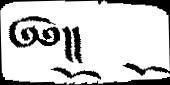༄༅།།
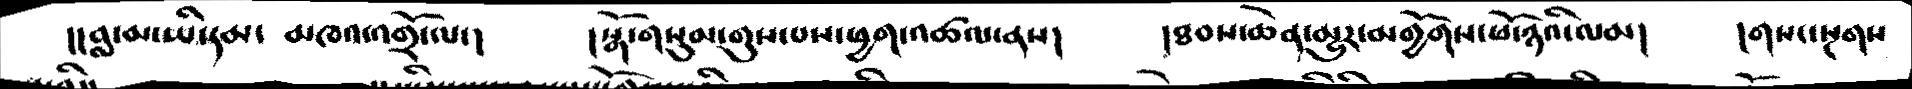།།བླ་མ་ཡི་དམ་ མཁའ་འགྲོ་ལ་།   །སྒོ་གསུམ་གུས་པས་ཕྱག་འཚལ་ནས།   །ཐབས་ཆེན་མྱུར་མགྱོགས་ཕོ་ཉའི་ལམ།   །གསང་སྔགས
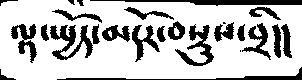ལྟ་སྤྱོད་མདོར་བསྡུས་བྲི།།
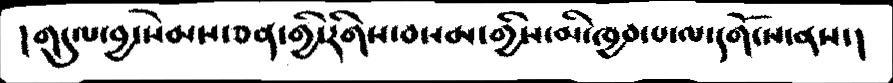།གདུལ་བྱ་སེམས་ཅན་གྱི་རིགས་བསམ་གྱིས་མི་ཁྱབ་པ་ལ་དགོངས་ནས་།
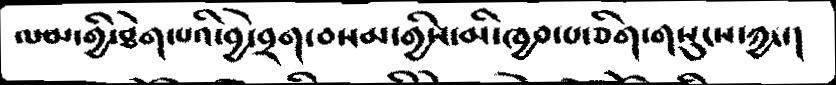ལམ་གྱི་ཐེག་པའི་བྱེ་བྲག་བསམ་གྱིས་མི་ཁྱབ་པ་ཅིག་གསུངས་ཀྱང་།
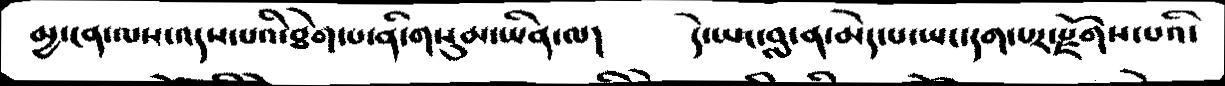མྱ་ངན་ལས་འདས་པའི་ཐེག་པ་ནི་གསུམ་ཡིན་ལ།   དེ་ཡང་བླ་ན་མེད་པ་ཡང་དག་པར་རྫོགས་པའི་
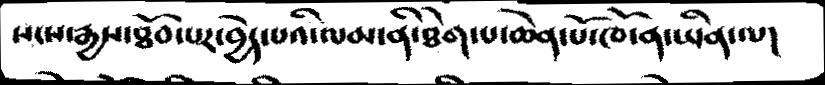སངས་རྒྱས་ཐོབ་པར་བྱེད་པའི་ལམ་ནི་ཐེག་པ་ཆེན་པོ་ཁོ་ན་ཡིན་ལ།
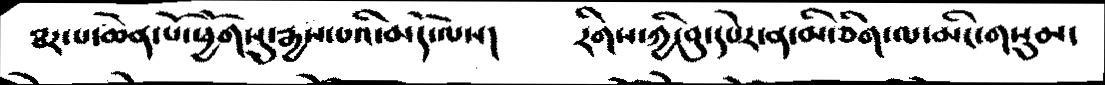ཐར་པ་ཆེན་པོ་ཕྱོགསུ་རྒྱས་པའི་མདོ་ལས།   རིགས་ཀྱི་བུ་དཔེར་ན་མི་ཅིག་ལ་མིང་གསུམ་
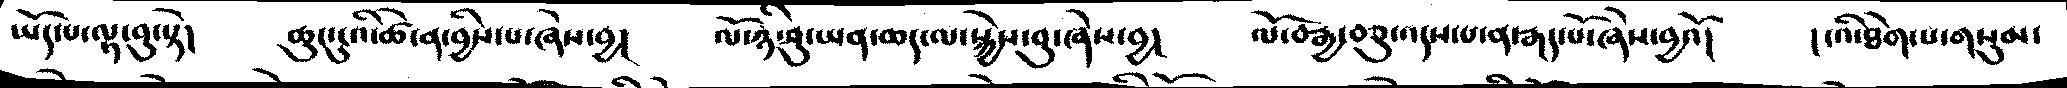ཡོད་པ་ལྟ་བུ་སྟེ།   ཆུང་ངུའི་ཚེ་ན་བྱིས་པ་ཞེས་བྱ།   ལོ་ཉི་ཤུ་ཡན་ཆད་ལ་སྐྱེས་བུ་ཞེས་བྱ།   ལོ་བརྒྱད་བཅུ་འདས་པ་ན་རྒད་པོ་ཞེས་བྱའོ།   །ངའི་ཐེག་པ་གསུམ་
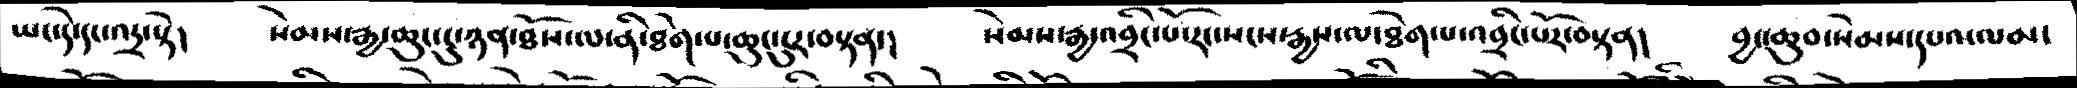ཡང་དེ་དང་འདྲ་སྟེ།   སེམས་རྒྱ་ཆུང་ངུ་ཉན་ཐོས་ལ་ནི་ཐེག་པ་ཆུང་ངུར་བསྟན་།   སེམས་རྒྱ་འབྲིང་པོ་རང་སངས་རྒྱས་ལ་ཐེག་པ་འབྲིང་པོར་བསྟན།   བྱང་ཆུབ་སེམས་དཔའ་ལམ་
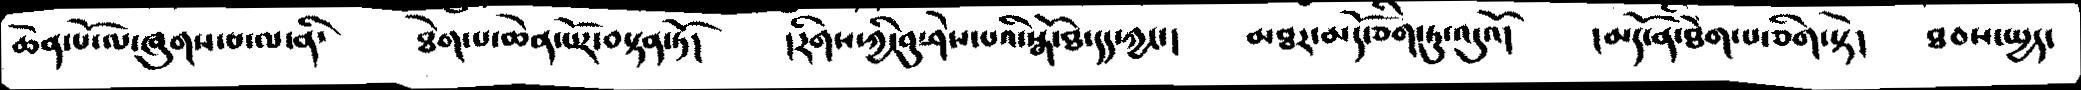ཆེན་པོ་ལ་ཞུགས་པ་ལ་ནི་   ཐེག་པ་ཆེན་པོར་བསྟན་ཏོ།   །རིགས་ཀྱི་བུ་ཤེས་པའི་སྒོ་ཐ་དད་ཀྱང་།   མཐར་མདོ་ཅིག་ཏུ་འདུའོ།   །མདོ་ནི་ཐེག་པ་ཅིག་སྟེ།   ཐབས་སྤྱད་
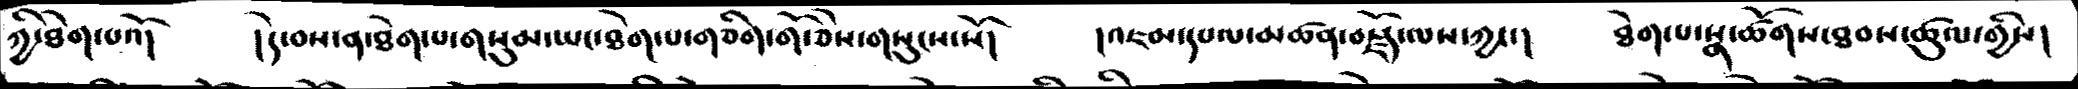ཀྱི་ཐེག་པའོ།   །དེ་བས་ན་ཐེག་པ་གསུམ་ཡང་ཐེག་པ་གཅིག་གོ་ཅེས་གསུངས་སོ།   །འཇམ་དཔལ་མཚན་བརྗོད་ལས་ཀྱང་།   ཐེག་པ་སྣ་ཚོགས་ཐབས་ཚུལ་གྱིས།
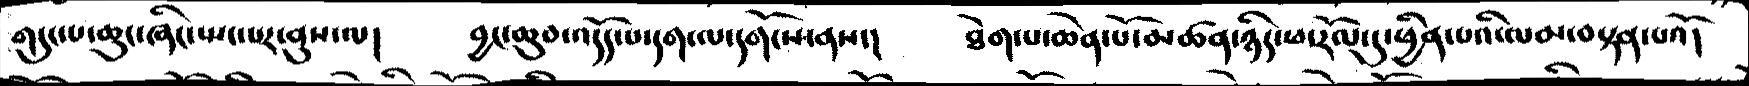གདུང་པ་ཆུང་ཞིང་སྤང་པར་ནུས་ལ།   བྱང་ཆུབ་འདོད་པ་དག་ལ་དགོངས་ནས་།   ཐེག་པ་ཆེན་པོ་མཚན་ཉིད་ཕ་རོལ་དུ་ཕྱིན་པའི་ལམ་བསྟན་པའོ།
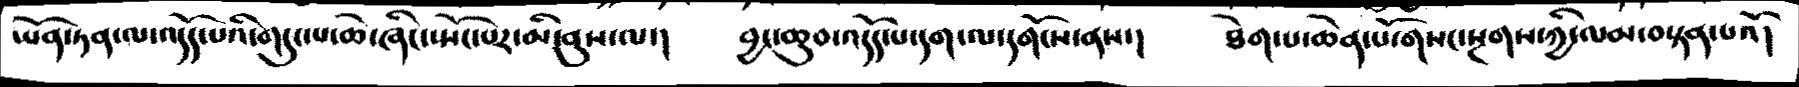ཡོན་ཏན་ལ་འདོད་པའི་གདུང་པ་ཆེ་ཞིང་སྤོང་པར་མི་ནུས་ལ།   བྱང་ཆུབ་འདོད་པ་དག་ལ་དགོངས་ནས་།   ཐེག་པ་ཆེན་པོ་གསང་སྔགས་ཀྱི་ལམ་བསྟན་པའོ།
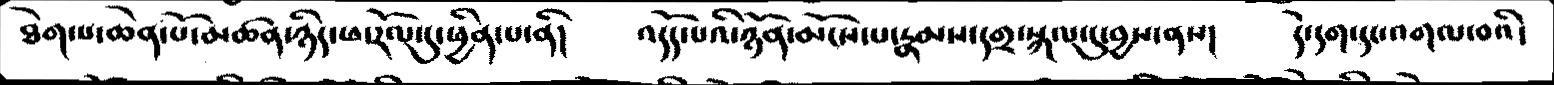ཐེག་པ་ཆེན་པོ་མཚན་ཉིད་ཕ་རོལ་དུ་ཕྱིན་པ་ནི།   འདོད་པའི་ཉོན་མོངས་པ་རྣམས་དགྲ་སྐལ་དུ་བྱས་ནས།    དེ་དག་དང་འགལ་བའི་
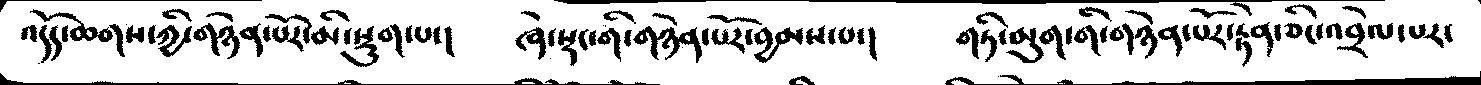འདོད་ཆགས་ཀྱི་གཉེན་པོར་མི་སྡུག་པ་།   ཞེ་སྡང་གི་གཉེན་པོར་བྱམས་པ་།    གཏི་མུག་གི་གཉེན་པོར་རྟེན་ཅིང་འབྲེལ་པར་
